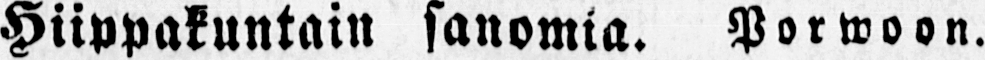Hiippakuntain sanomia. Porwoon.
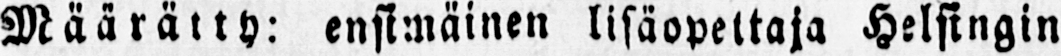Määrätty: ensimäinen lisäopettaja Helsingin
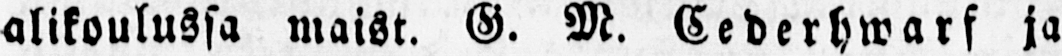alikoulussa maist. G. M. Cederhwarf ja
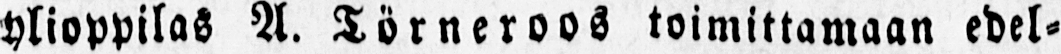ylioppilas A. Törneroos toimittamaan edel-
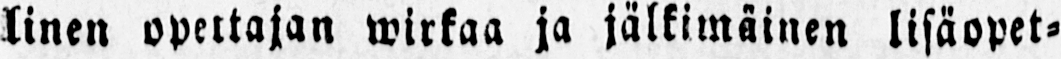linen opettajan wirkaa ja jälkimäinen lisäopet-
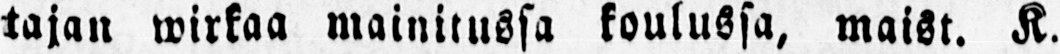tajan wirkaa mainitussa koulussa, maist. K.
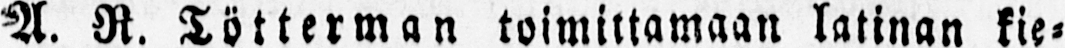A. R. Tötterman toimittamaan latinan kie-
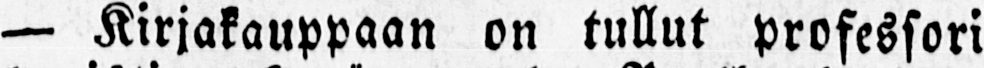— Kirjakauppaan on tullut professori
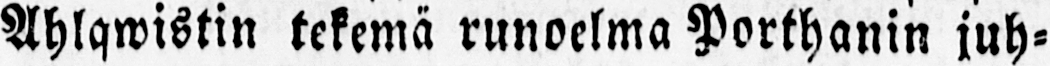Ahlqwistin tekemä runoelma Porthanin juh-
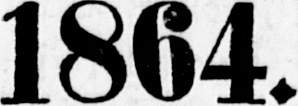1864.
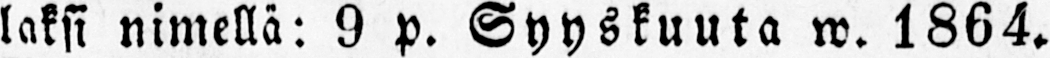läksi nimellä: 9 p. Syyskuuta w. 1864.
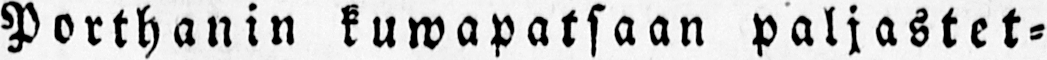Porthanin kuwapatsaan paljastet-
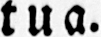tua.
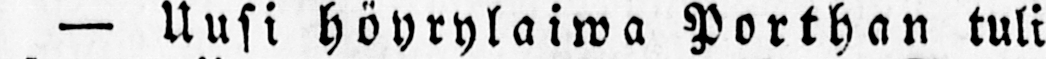- Uusi höyrylaiwa Porthan tuli
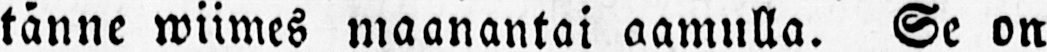tänne wiimes maanantai aamulla. Se on
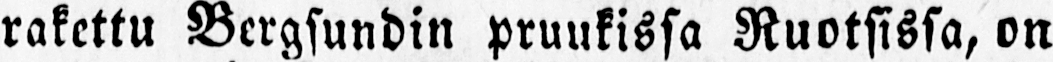rakettu Bergsundin pruukissa Ruotsissa, on
